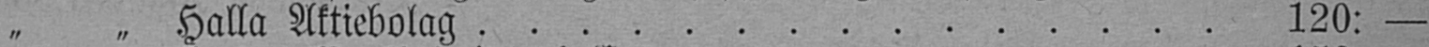" " Halla Aktiebolag 120: —
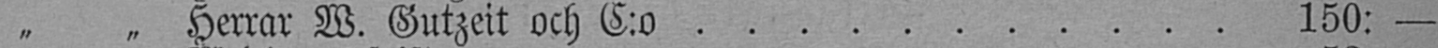" " Herrar W. Gutzeit och C:o 150: —
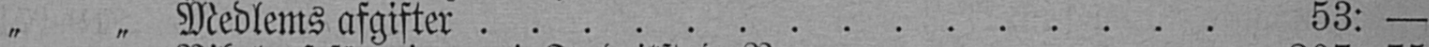" " Medlems afgifter 53: —
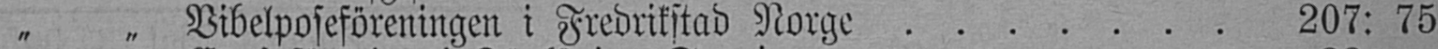" " Bibelposeföreningen i Fredrikstad Norge 207: 75
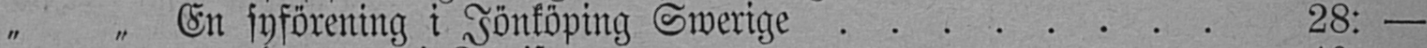" " En syförening i Jönköping Swerige 28: —
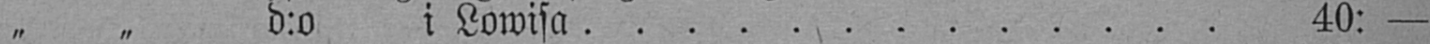" " d:o i Lowisa 40: —
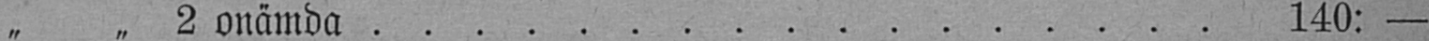" " 2 onämda 140: —
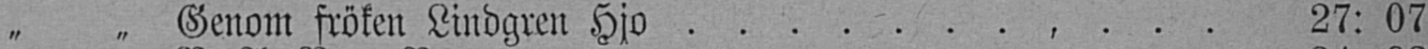" " Genom fröken Lindgren Hjo , . . . 27: 07
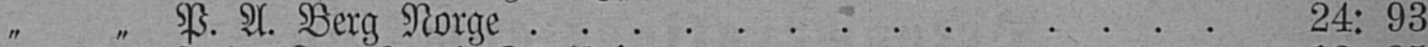" " P. A. Berg Norge .. 24: 93
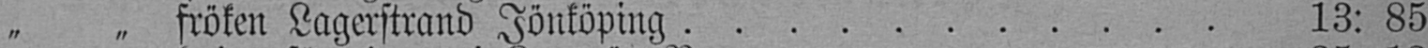" " fröken Lagerstrand Jönköping 13: 85
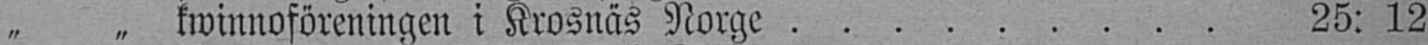" " kwinnoföreningen i Krosnäs Norge 25: 12
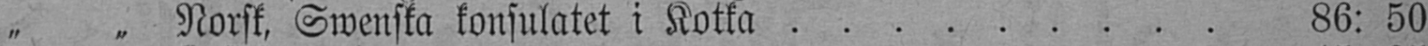" " Norsk, Swenska konsulatet i Kotka 86: 50
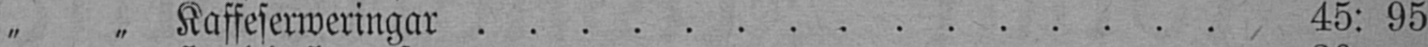" " Kaffeserweringar 45: 95
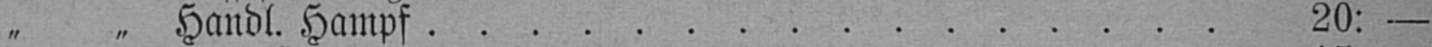" " Handl. Hampf 20: —
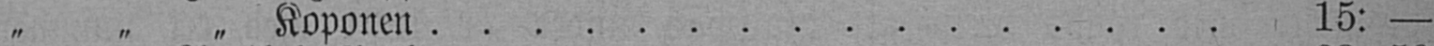" " " Koponen 15: —
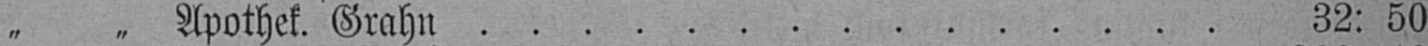" " Apothek. Grahn 32: 50
